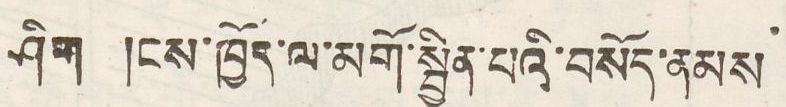ཤོག །ངས་ཁྱོད་ལ་མགོ་སྦྱིན་པའི་བསོད་ནམས
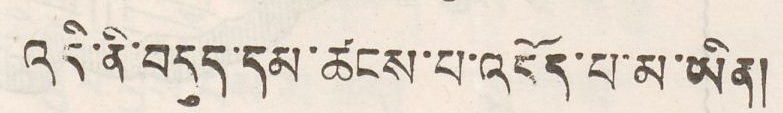འདི་ནི་བདུད་དམ་ཚངས་པ་འདོད་པ་མ་ཡིན།
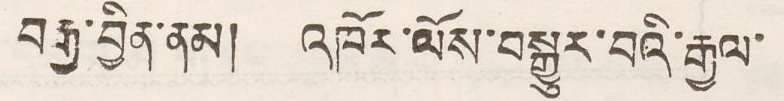བརྒྱ་བྱིན་ནམ། འཁོར་ལོས་བསྒྱུར་བའི་རྒྱལ་
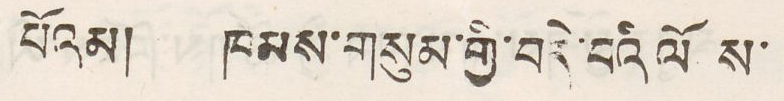པོའམ། ཁམས་གསུམ་གྱི་བདེ་བའི་ལོ ས་
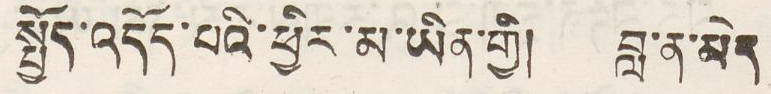སྤྱོད་འདོད་པའི་ཕྱིར་མ་ཡིན་གྱི། བླ་ན་མེད
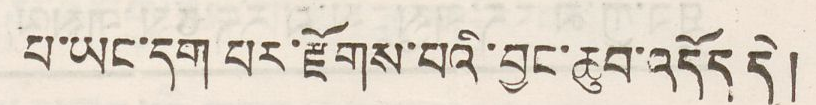པ་ཡང་དག པར་རྫོགས་པའི་བྱང་ཆུབ་འདོད དེ།
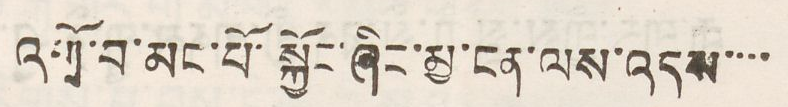འགྲོ་བ་མང་པོ་སྐྱོང་ཞིང་མྱ་ངན་ལས་འདས་་་་
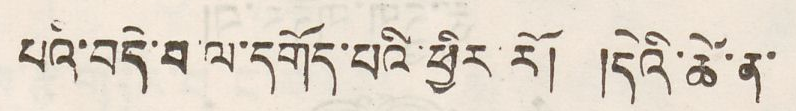པའི་བདེ་བ་ལ་དགོད་པའི་ཕྱིར རོ། །དེའི་ཚེ་ན་
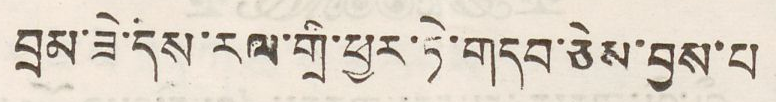བྲམ་ཟེ་དས་རལ་གྲི་ཕྱར་ཏེ་གདབ་ཅེས་བྱས་པ
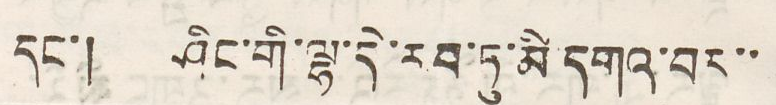དང་། ཤིང་གི་ལྷ་ཏེ་རབ་ཏུ་མི་དགའ་བར་་
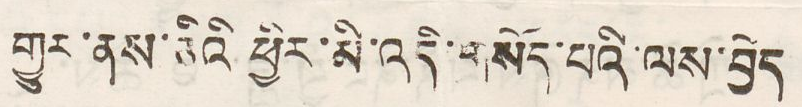གྱུར་ནས་ཅིའི ཕྱིར་མི་འདི་གསོད་པའི་ལས་བྱེད
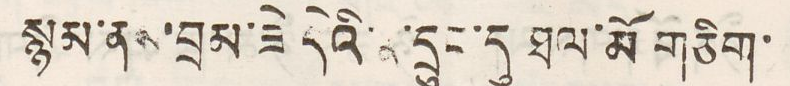སྙམ་ནས་བྲམ་ཟེ དེའི་ ་དྲུང་དུ ཐལ་མོ གཅིག་
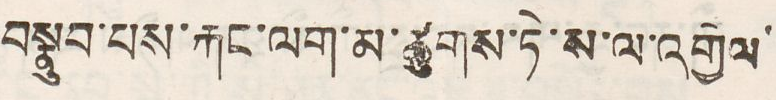བསྣུབ་པས་རྐང་ལག་མ་ཚུགས་ཏེ་ས་ལ་འགྱེལ་
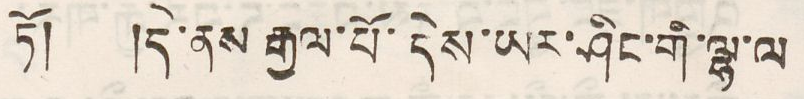ཏོ། །དེ་ནས་རྒྱལ་པོ་དེས་ཡར་ཤིང་གི་ལྷ་ལ་
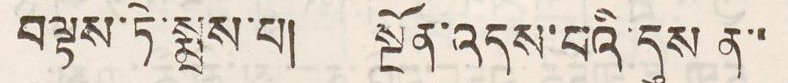བལྟས་ཏེ་སྨྲས་པ། སྔོན་འདས་པའི་དུས ན་་
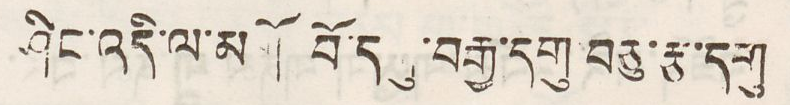ཤིང་འདི་ལ་མགོ བོ་དགུ་བརྒྱ་དགུ བཅུ་རྩ་དགུ
